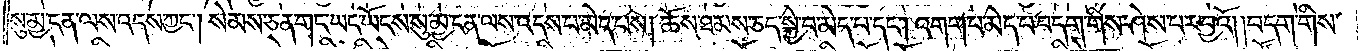སུ་མྱ་ངན་ལས་འདས་ཀྱང༌། སེམས་ཅན་གང་ཡང་ཡོངས་སུ་མྱ་ངན་ལས་འདས་པ་མེད་པས། ཆོས་ཐམས་ཅད་སྐྱེ་བ་མེད་པ་དང༌། འགག་པ་མེད་པ་བདག་གིས་ཤེས་པར་བྱའོ། །བདག་གིས་
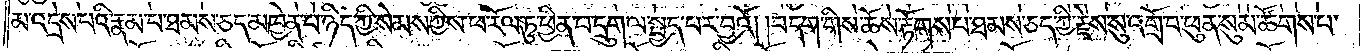མ་འདྲེས་པའི་རྣམ་པ་ཐམས་ཅད་མཁྱེན་པ་ཉིད་ཀྱི་སེམས་ཀྱིས་ཕ་རོལ་ཏུ་ཕྱིན་པ་དྲུག་ལ་སྤྱད་པར་བྱའོ། །བདག་གིས་ཆོས་རྟོགས་པ་ཐམས་ཅད་ཀྱི་རྗེས་སུ་འགྲོ་བ་ཕུན་སུམ་ཚོགས་པ་
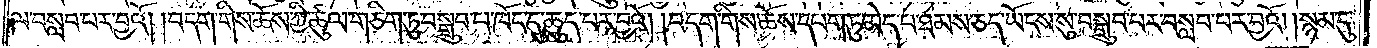ལ་བསླབ་པར་བྱའོ། །བདག་གིས་ཆོས་ཀྱི་ཚུལ་གཅིག་ཏུ་བསྒྲུབ་པ་ཁོང་དུ་ཆུད་པར་བྱའོ། །བདག་གིས་ཆོས་དཔག་ཏུ་མེད་པ་ཐམས་ཅད་ཡོངས་སུ་བསྒྲུབ་པར་བསླབ་པར་བྱའོ། །སྙམ་དུ་
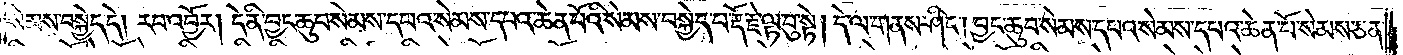སེམས་བསྐྱེད་དེ། རབ་འབྱོར། དེ་ནི་བྱང་ཆུབ་སེམས་དཔའ་སེམས་དཔའ་ཆེན་པོའི་སེམས་བསྐྱེད་པ་རྡོ་རྗེ་ལྟ་བུ་སྟེ། དེ་ལ་གནས་ཤིང༌། བྱང་ཆུབ་སེམས་དཔའ་སེམས་དཔའ་ཆེན་པོ་སེམས་ཅན་
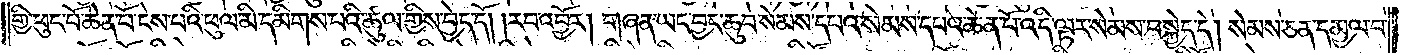གྱི་ཕུང་པོ་ཆེན་པོ་ངེས་པའི་ཕུལ་མི་དམིགས་པའི་ཚུལ་གྱིས་བྱེད་དོ། །རབ་འབྱོར། གཞན་ཡང་བྱང་ཆུབ་སེམས་དཔའ་སེམས་དཔའ་ཆེན་པོ་འདི་ལྟར་སེམས་བསྐྱེད་དེ། སེམས་ཅན་དམྱལ་བ་
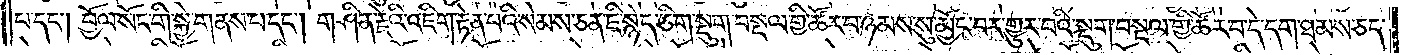པ་དང༌། བྱོལ་སོང་གི་སྐྱེ་གནས་པ་དང༌། གཤིན་རྗེའི་འཇིག་རྟེན་པའི་སེམས་ཅན་ཇི་སྙེད་ཅིག་སྡུག་བསྔལ་གྱི་ཚོར་པ་ཉམས་སུ་མྱོང་བར་གྱུར་པའི་སྡུག་བསྔལ་གྱི་ཚོར་བ་དེ་དག་ཐམས་ཅད་
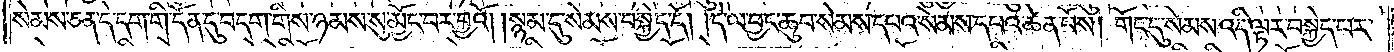སེམས་ཅན་དེ་དག་གི་དོན་དུ་བདག་གིས་ཉམས་སུ་མྱོང་བར་བྱའོ། །སྙམ་དུ་སེམས་བསྐྱེད་དེ། དེ་ལ་བྱང་ཆུབ་སེམས་དཔའ་སེམས་དཔའ་ཆེན་པོས། གོང་དུ་སེམས་འདི་ལྟར་བསྐྱེད་པར་
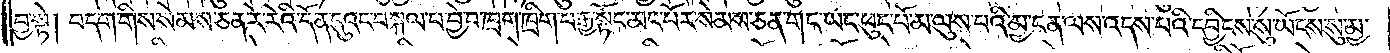བྱ་སྟེ། བདག་གིས་སེམས་ཅན་རེ་རེའི་དོན་དུའང་བསྐལ་པ་བྱེ་བ་ཁྲག་ཁྲིག་བརྒྱ་སྟོང་མང་པོར་སེམས་ཅན་གང་ཡང་ཕུང་པོ་མ་ལུས་པའི་མྱ་ངན་ལས་འདས་པའི་དབྱིངས་སུ་ཡོངས་སུ་མྱ་
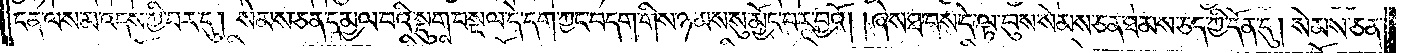ངན་ལས་མ་འདས་ཀྱི་བར་དུ། སེམས་ཅན་དམྱལ་བའི་སྡུག་བསྔལ་དེ་དག་ཀྱང༌། བདག་གིས་ཉམས་སུ་མྱོང་བར་བྱའོ། ཞེས་ཐབས་དེ་ལྟ་བུས་སེམས་ཅན་ཐམས་ཅད་ཀྱི་དོན་དུ། སེམས་ཅན་
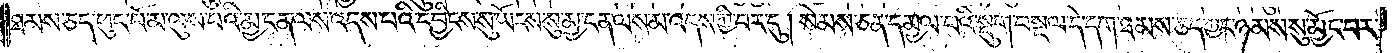ཐམས་ཅད་ཕུང་པོ་མ་ལུས་པའི་མྱ་ངན་ལས་འདས་པའི་དབྱིངས་སུ་ཡོངས་སུ་མྱ་ངན་ལས་མ་འདས་ཀྱི་བར་དུ། །སེམས་ཅན་དམྱལ་བའི་སྡུག་བསྔལ་དེ་དག་ཐམས་ཅད་ཀྱང་ཉམས་སུ་མྱོང་བར་
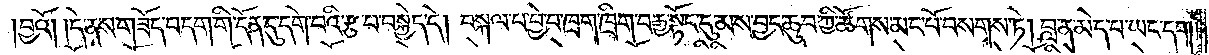བྱའོ། །དེ་ནས་གཟོད་པ་དག་གི་དོན་དུ་དགེ་བའི་རྩ་བ་བསྐྱེད་དེ། བསྐལ་པ་བྱེ་བ་ཁྲག་ཁྲིག་བརྒྱ་སྟོང་དུ་མས་བྱང་ཆུབ་ཀྱི་ཚོགས་མང་པོ་བསགས་ཏེ། བླ་ན་མེད་པ་ཡང་དག་
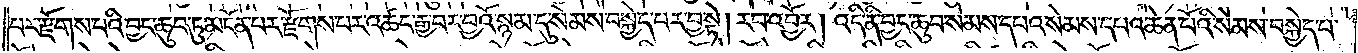པར་རྫོགས་པའི་བྱང་ཆུབ་ཏུ་མངོན་པར་རྫོགས་པར་འཚང་རྒྱ་བར་བྱའོ་སྙམ་དུ་སེམས་བསྐྱེད་པར་བྱ་སྟེ། རབ་འབྱོར། འདི་ནི་བྱང་ཆུབ་སེམས་དཔའ་སེམས་དཔའ་ཆེན་པོའི་སེམས་བསྐྱེད་པ་
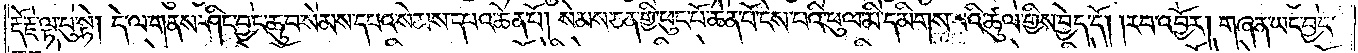རྡོ་རྗེ་ལྟ་བུ་སྟེ། དེ་ལ་གནས་ཤིང་བྱང་ཆུབ་སེམས་དཔའ་སེམས་དཔའ་ཆེན་པོ། སེམས་ཅན་གྱི་ཕུང་པོ་ཆེན་པོ་ངེས་པའི་ཕུལ་མི་དམིགས་པའི་ཚུལ་གྱིས་བྱེད་དོ། །རབ་འབྱོར། གཞན་ཡང་བྱང་
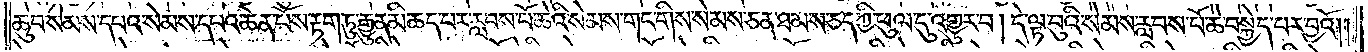ཆུབ་སེམས་དཔའ་སེམས་དཔའ་ཆེན་པོས་རྟག་ཏུ་རྒྱུན་མི་ཆད་པར་རླབས་པོ་ཆེའི་སེམས་གང་གིས་སེམས་ཅན་ཐམས་ཅད་ཀྱི་ཕུལ་དུ་འགྱུར་བ། དེ་ལྟ་བུའི་སེམས་རླབས་པོ་ཆེ་བསྐྱེད་པར་བྱའོ། །
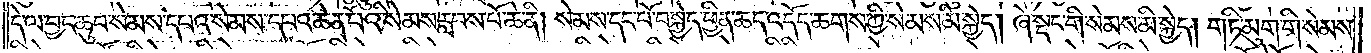དེ་ལ་བྱང་ཆུབ་སེམས་དཔའ་སེམས་དཔའ་ཆེན་པོའི་སེམས་རླབས་པོ་ཆེ་ནི། སེམས་དང་པོ་བསྐྱེད་ཕྱིན་ཆད་འདོད་ཆགས་ཀྱི་སེམས་མི་སྐྱེད། ཞེ་སྡང་གི་སེམས་མི་སྐྱེད། གཏི་མུག་གི་སེམས་
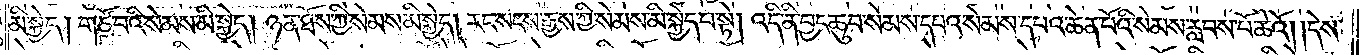མི་སྐྱེད། གཙོ་བའི་སེམས་མི་སྐྱེད། ཉན་ཐོས་ཀྱི་སེམས་མི་སྐྱེད། རང་སངས་རྒྱས་ཀྱི་སེམས་མི་སྐྱེད་པ་སྟེ། འདི་ནི་བྱང་ཆུབ་སེམས་དཔའ་སེམས་དཔའ་ཆེན་པོའི་སེམས་རླབས་པོ་ཆེའོ། །དེས་
